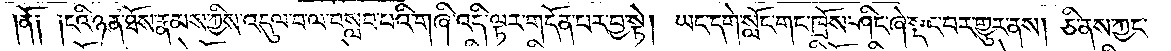།ནོ༑ ༑ངའི་ཉན་ཐོས་རྣམས་ཀྱིས་འདུལ་བ་ལ་བསླབ་པའི་གཞི་འདི་ལྟར་གདོན་པར་བྱ་སྟེ། ཡང་དགེ་སློང་གང་ཁྲོས་ཤིང་ཞེ་སྡང་བར་གྱུར་ནས། ཅི་ནས་ཀྱང་
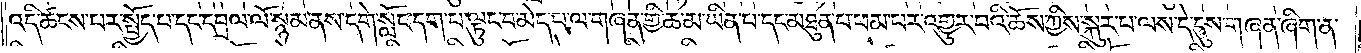འདི་ཚངས་པར་སྤྱོད་པ་དང་དབྲལ་ལོ་སྙམ་ནས་དགེ་སློང་དག་པ་ལྟུང་བ་མེད་པ་ལ་གཞན་གྱི་ཆ་མ་ཡིན་པ་དང་མཐུན་པ་ཕམ་པར་འགྱུར་བའི་ཆོས་ཀྱིས་སྐུར་པ་ལས་དེ་དུས་གཞན་ཞིག་ན་
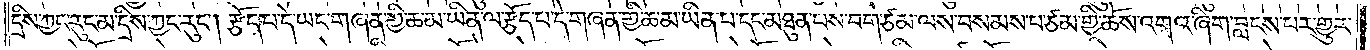དྲིས་ཀྱང་རུང་མ་དྲིས་ཀྱང་རུང༌། རྩོད་པ་དེ་ཡང་གཞན་གྱི་ཆ་མ་ཡིན་ལ་རྩོད་པ་དེ་གཞན་གྱི་ཆ་མ་ཡིན་པ་དང་མཐུན་པས་བག་ཙམ་ལས་བསམས་པ་ཙམ་གྱི་ཆོས་འགའ་ཞིག་བླངས་པར་གྱུར་
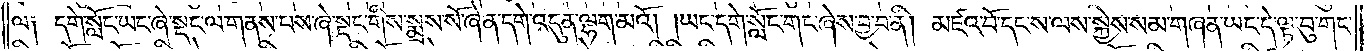ལ༑ དགེ་སློང་ཡང་ཞེ་སྡང་ལ་གནས་པས་ཞེ་སྡང་གིས་སྨྲས་སོ་ཞེ་ན་དགེ་འདུན་ལྷག་མའོ། །ཡང་དགེ་སློང་གང་ཞེས་བྱ་བ་ནི། མཛའ་བོ་དང་ས་ལས་སྐྱེས་སམ་གཞན་ཡང་དེ་ལྟ་བུ་གང་
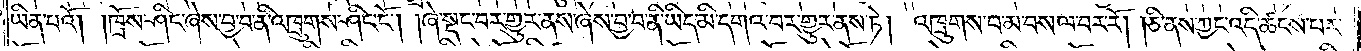ཡིན་པའོ། །ཁྲོས་ཤིང་ཞེས་བྱ་བ་ནི་འཁྲུགས་ཤིང་ངོ༌། །ཞེ་སྡང་བར་གྱུར་ནས་ཞེས་བྱ་བ་ནི་ཡིད་མི་དགའ་བར་གྱུར་ནས་ཏེ། འཁྲུགས་པ་མ་བསལ་བར་རོ། །ཅི་ནས་ཀྱང་འདི་ཚངས་པར་
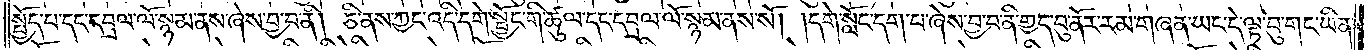སྤྱོད་པ་དང་དབྲལ་ལོ་སྙམ་ནས་ཞེས་བྱ་བ་ནི། ཅི་ནས་ཀྱང་འདི་དགེ་སྦྱོང་གི་ཚུལ་དང་དབྲལ་ལོ་སྙམ་ནས་སོ། །དགེ་སློང་དག་པ་ཞེས་བྱ་བ་ནི་གྱད་བུ་ནོར་རམ་གཞན་ཡང་དེ་ལྟ་བུ་གང་ཡིན་
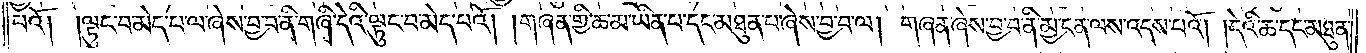པའོ། །ལྟུང་བ་མེད་པ་ལ་ཞེས་བྱ་བ་ནི་གཞི་དེའི་ལྟུང་བ་མེད་པའོ། །གཞན་གྱི་ཆ་མ་ཡིན་པ་དང་མཐུན་པ་ཞེས་བྱ་བ་ལ། གཞན་ཞེས་བྱ་བ་ནི་མྱ་ངན་ལས་འདས་པའོ། །དེའི་ཆ་དང་མཐུན་
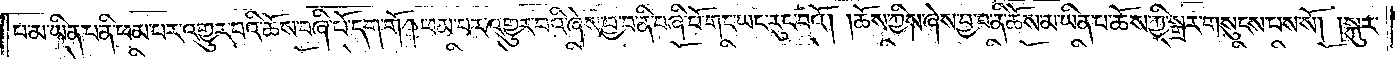པ་མ་ཡིན་པ་ནི་ཕམ་པར་འགྱུར་བའི་ཆོས་བཞི་པོ་དག་གོ །ཕམ་པར་འགྱུར་བའི་ཞེས་བྱ་བ་ནི་བཞི་པོ་གང་ཡང་རུང་བའོ། །ཆོས་ཀྱིས་ཞེས་བྱ་བ་ནི་ཆོས་མ་ཡིན་པ་ཆོས་ཀྱི་སྒྲར་གསུངས་པས་སོ། །སྐུར་
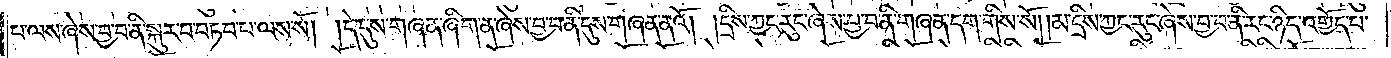པ་ལས་ཞེས་བྱ་བ་ནི་སྐུར་བ་བཏབ་པ་ལས་སོ། །དེ་དུས་གཞན་ཞིག་ན་ཞེས་བྱ་བ་ནི་དུས་གཞན་ནའོ། །དྲིས་ཀྱང་རུང་ཞེས་བྱ་བ་ནི་གཞན་དག་གིས་སོ། །མ་དྲིས་ཀྱང་རུང་ཞེས་བྱ་བ་ནི་རང་ཉིད་འགྱོད་པ་
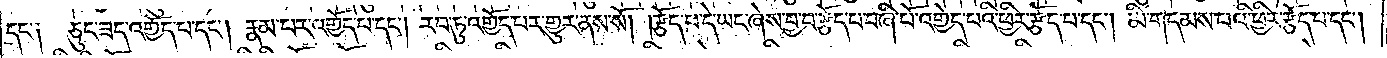དང་༑ ཅུང་ཟད་འགྱོད་པ་དང༌། རྣམ་པར་འགྱོད་པ་དང༌། རབ་ཏུ་འགྱོད་པར་གྱུར་ནས་སོ། །རྩོད་པ་དེ་ཡང་ཞེས་བྱ་བ་རྩོད་པ་བཞི་པོ་འགྱེད་པའི་ཕྱིར་རྩོད་པ་དང༌། མི་གདམས་པའི་ཕྱིར་རྩོད་པ་དང༌།
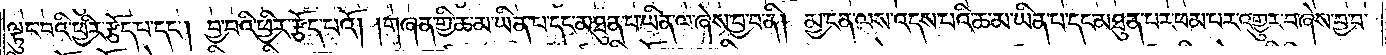ལྟུང་བའི་ཕྱིར་རྩོད་པ་དང༌། བྱ་བའི་ཕྱིར་རྩོད་པའོ། །གཞན་གྱི་ཆ་མ་ཡིན་པ་དང་མཐུན་པ་ཡིན་ལ་ཞེས་བྱ་བ་ནི། མྱ་ངན་ལས་འདས་པའི་ཆ་མ་ཡིན་པ་དང་མཐུན་པར་ཕམ་པར་འགྱུར་བ་ཞེས་བྱ་བ་
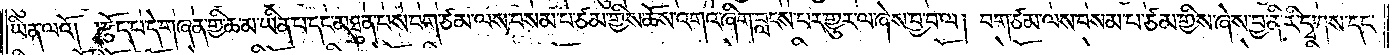ཡིན་ལའོ། །རྩོད་པ་དེ་གཞན་གྱི་ཆ་མ་ཡིན་པ་དང་མཐུན་པས་བག་ཙམ་ལས་བསམ་པ་ཙམ་གྱིས་ཆོས་འགའ་ཞིག་བླངས་པར་གྱུར་ལ་ཞེས་བྱ་བ་ལ། བག་ཙམ་ལས་བསམ་པ་ཙམ་གྱིས་ཞེས་བྱ་བ་ནི་རི་དྭགས་དང་
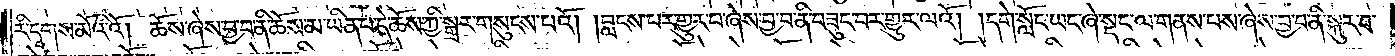རི་དྭགས་མོའི་འོ། ཆོས་ཞེས་བྱ་བ་ནི་ཆོས་མ་ཡིན་པ་དེ་ཆོས་ཀྱི་སྒྲར་གསུངས་པའོ། །བླངས་པར་གྱུར་པ་ཞེས་བྱ་བ་ནི་བཟུང་བར་གྱུར་ལའོ། །དགེ་སློང་ཡང་ཞེ་སྡང་ལ་གནས་པས་ཞེས་བྱ་བ་ནི་སྐུར་བ་
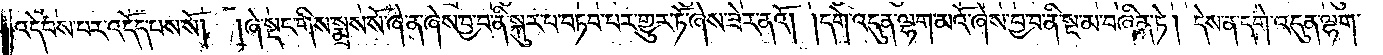འདེབས་པར་འདོད་པས་སོ། །ཞེ་སྡང་གིས་སྨྲས་སོ་ཞེ་ན་ཞེས་བྱ་བ་ནི་སྐུར་པ་བཏབ་པར་གྱུར་ཏོ་ཞེས་ཟེར་ནའོ། །དགེ་འདུན་ལྷག་མའོ་ཞེས་བྱ་བ་ནི་སྔ་མ་བཞིན་ཏེ། དེས་ན་དགེ་འདུན་ལྷག་
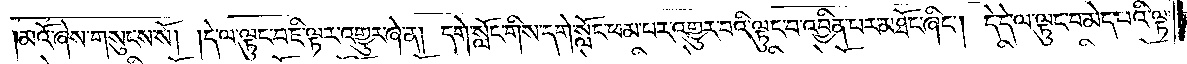མའོ་ཞེས་གསུངས་སོ། །དེ་ལ་ལྟུང་བ་ཇི་ལྟར་འགྱུར་ཞེ་ན། དགེ་སློང་གིས་དགེ་སློང་ཕམ་པར་འགྱུར་བའི་ལྟུང་བ་འབྱིན་པར་མཐོང་ཞིང༌། དེ་དེ་ལ་ལྟུང་བ་མེད་པའི་ལྟ་
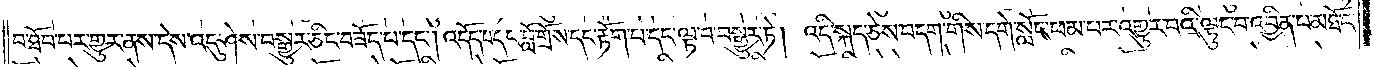བ་ཐོབ་པར་གྱུར་ནས་དེས་འདུ་ཤེས་བསྒྱུར་ཅིང་བཟོད་པ་དང༌། འདོད་པ་དང་བློ་གྲོས་དང་རྟོག་པ་དང་ལྟ་བ་བསྒྱུར་ཏེ། འདི་སྐད་ཅེས་བདག་གིས་དགེ་སློང་ཕམ་པར་འགྱུར་བའི་ལྟུང་བ་འབྱིན་པ་མཐོང་
